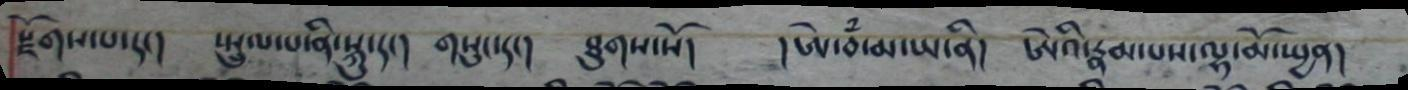སྫོགས་པ་དང། སྤྲུལ་པ་ནི་སྐུ་དང། གསུང་དང། ཐུགས་སོ། །ཨེ་བཾ་མ་ཡ་ནི། ཨེའི་རྣམ་པས་ལྷ་མོ་སྤྱན།
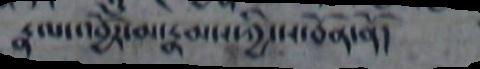རྣལ་འབྱོར་མ་རྣམས་ཀྱི་ས་བོན་ནོ།
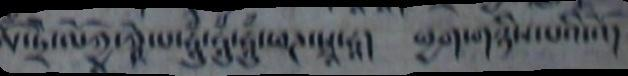ཨོཾ་ཏྲེ་ལོཀྱ་ཀྵེ་པ་ཧཱུཾ་ཧཱུཾ་ཧཱུཾ་ཕཌ་སྭཱ་ཧཱ། ཕྱག་གཉིས་པའི་འོ།
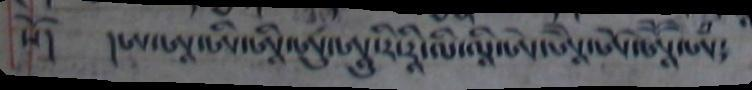སོ། །ཨ་ཨཱ་ཨི་ཨཱི་ཨུ་ཨཱུ་རི་རཱི་ལི་ལཱི་ཨེ་ཨཱཻ་ཨོ་ཨཱཽ་ཨཾ༴
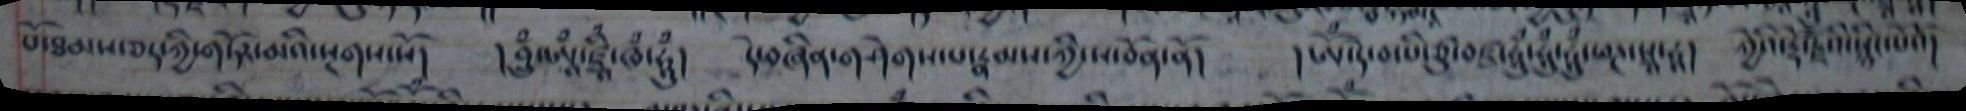པོ་ཐམས་ཅད་ཀྱི་གཏོར་མའི་སྔགས་སོ།  །བྲུྃ་ཨཱྃ་ཛྭཱིཾ་ཁཾ་ཧཱུྃ།  དེ་བཞིན་གཤེགས་པ་རྣམས་ཀྱི་ས་བོན་ནོ།   །ཨོྃ་དེ་བ་པི་ཙུ་བཛ་ཧཱུཾ་ཧཱུྃ་ཧཱུྃ་ཕཌ་སྭཱ་ཧཱ།  ཀྱེའི་རྡོ་རྗེའི་སྙིང་པོའོ།
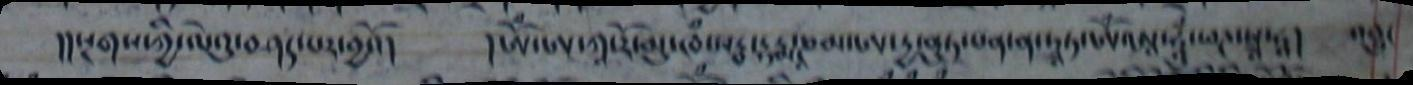།།སྔགས་ཀྱི་ལེའུ་བཤད་པར་བྱའོ། །ཨོཾ་ཨ་ཀཱ་རོ་མུ་ཁཾ་སརྦ་དྷརྨ་ཎམ་ཨ་ཏྱ་ནུཏ་པན་ན་ཏྭཱཏ་ཨོཾཨཱ་ཧཱུཾ་ཕཌ་སྭཱ་ཧཱ། འབྱུང
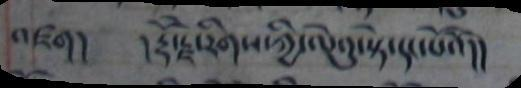འཛག། །རྡོ་རྗེ་རིགས་ཀྱི་ལེའུ་སྟེ་དང་པོའོ།།
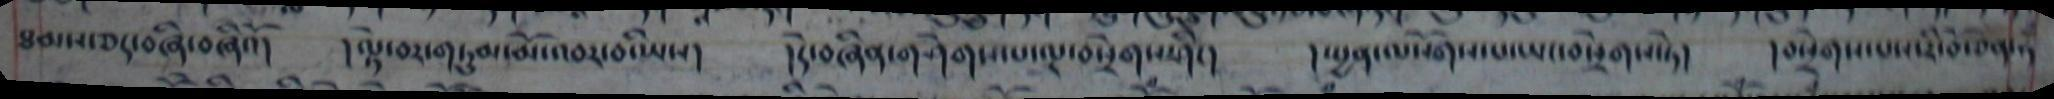ཐམས་ཅད་བཞི་བཞིའོ། །ལྟེ་བར་གཏུམ་མོ་འབར་བ་ཡིས། །དེ་བཞིན་གཤེགས་པ་ལྔ་བསྲེགས་ཤིང། །སྤྱན་ལསོགས་པ་ཡང་བསྲེགས་ཏེ། །བསྲེགས་པས་རི་བོ་ཅན་ཧ
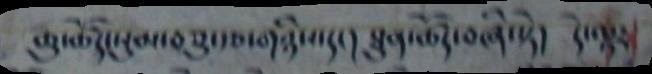ཆུ་ཚོད་སུམ་བཅུ་རྩ་གཉིས་དང། ཐུན་ཚོད་བཞི་སྟེ། དེ་ལྟར
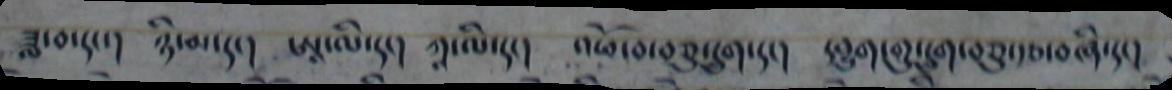ཟླ་བ་དང་། ཉི་མ་དང། ཨཱ་ལི་དང། ཀཱ་ལི་དང། འཕོ་བ་བཅུ་དྲུག་དང། དབྱུག་གུ་དྲུག་བཅུ་རྩ་བཞི་དང།
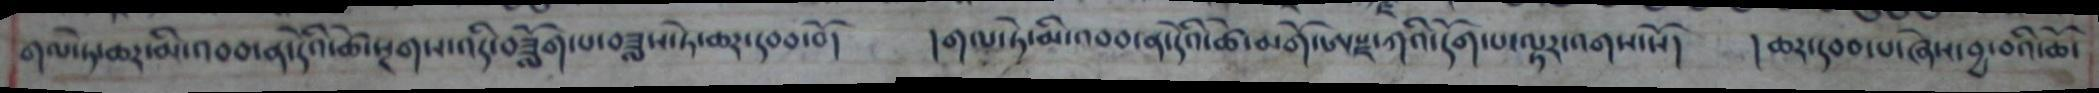གལ་ཏེ་ཆར་མི་འབབ་ན་དེའི་ཚེ་སྔགས་འདི་བཟློག་པ་བཟླས་ཏེ་ཆར་དབབ་བོ། །གལ་ཏེ་མི་འབབ་ན་དེའི་ཚེ་མགོ་ཨསྫ་ཀའི་དོག་པ་ལྟར་འགས་སོ། །ཆར་དབབ་པ་ཞེས་བྱ་བའི་ཆོ་
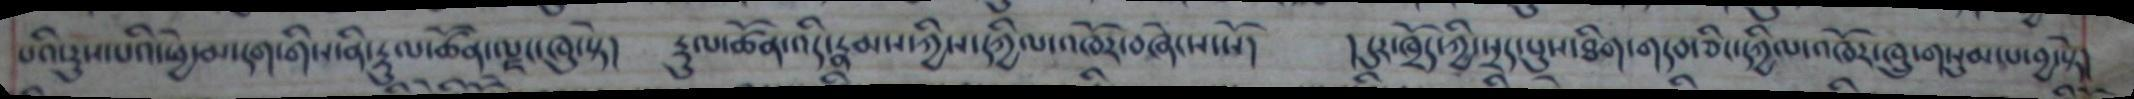པའི་རུས་པའི་ཕྱེ་མ་དག་གིས་ནི་རྡུལ་ཚོན་ལྗང་ཁུ་སྟེ།  རྡུལ་ཚོན་འདི་རྣམས་ཀྱིས་དཀྱིལ་འཁོར་བཞེངས་སོ། །དུར་ཁྲོད་ཀྱི་སྲད་པུས་ཐིག་གདབ་ཅིང་དཀྱིལ་འཁོར་ཁྲུ་གསམ་པ་བྱ་སྟེ།
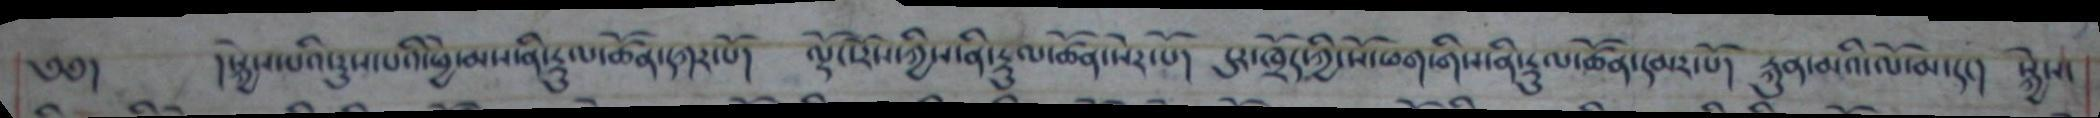༄༅།      །སྐྱེད་པའི་རུས་པའི་ཕྱེ་མས་ནི་རྡུལ་ཚོན་དཀར་པོ།  ལྟོང་རོས་ཀྱིས་ནི་རྡུལ་ཚོན་སེར་པོ།  དུར་ཁྲོད་ཀྱི་སོ་ཕག་གིས་ནི་རྡུལ་ཚོན་དམར་པོ།  རྐུན་མའི་ལོ་མ་དང།  སྐྱེས་
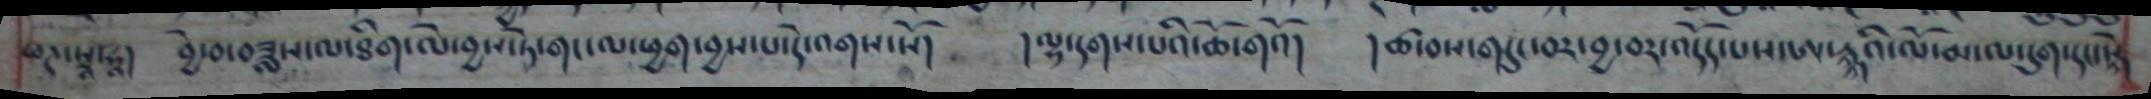ཕཊ་སྭ་ཧཱ།  བྱེ་བ་བཟླས་ལ་ཐིག་ལེ་བྱས་ཏེ་གང་ལ་ཕྱག་བྱས་པ་དེ་འགས་སོ།  །ལྷ་དགས་པའི་ཆོ་གའོ།  །ཚ་བས་གདུ་བར་བྱ་བར་འདོད་པས་ཨ་ཏཱྐའི་ལོ་མ་ལ་དུག་དང་སྟེ
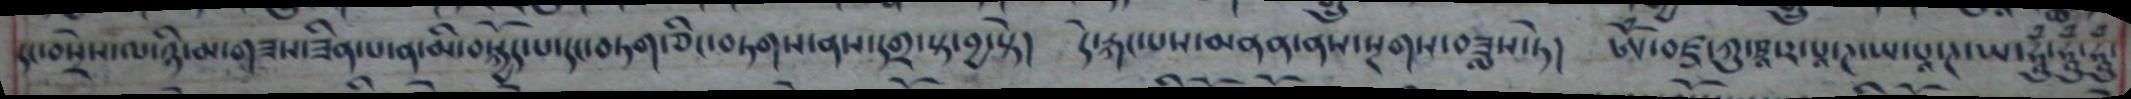དང་བསྲེས་ལ་ཉི་མ་གཟས་ཟིན་པ་ན་མི་བསྐྱོད་པ་དང་བཏག་ཅིང་བཏགས་ནས་དགྲ་སྟ་བྱ་སྟེ།  དེ་རྐང་པས་མནན་ནས་སྔགས་བཟླས་ཏེ།  ཨོཾ་བཛྲ་ཀུ་ཋཱ་ར་པཱ་ཊ་ཡ་པཱ་ཊ་ཡ་ཧཱུཾ་ཧཱུཾ་ཧཱུཾ་
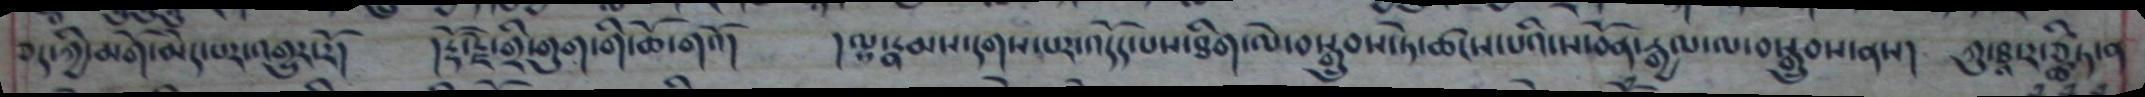ཅད་ཀྱི་མགོ་མེད་པར་འགྱུར་རོ། །རྡོ་རྗེ་གྲི་གུག་གི་ཆོ་གའོ། །ལྷ་རྣམས་དགས་པར་འདོད་པས་ཐིག་ལེ་བསྒྲུབས་ཏེ་ཚངས་པའི་ས་བོན་རྒྱལ་ལ་བསྒྲུབས་ནས། ཀུ་ཐཱ་ར་ཙྪིཏ་ན
